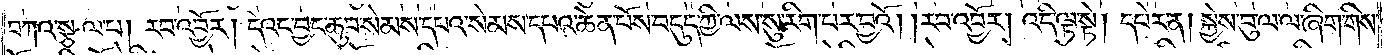བཀའ་སྩལ་པ། རབ་འབྱོར། དེའང་བྱང་ཆུབ་སེམས་དཔའ་སེམས་དཔའ་ཆེན་པོས་བདུད་ཀྱི་ལས་སུ་རིག་པར་བྱའོ། །རབ་འབྱོར། འདི་ལྟ་སྟེ། དཔེར་ན། སྐྱེས་བུ་ལ་ལ་ཞིག་གིས་
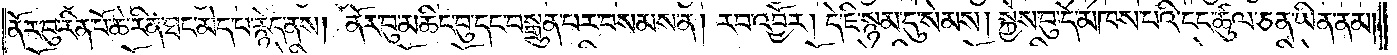ནོར་བུ་རིན་པོ་ཆེ་རིན་ཐང་མེད་པ་རྙེད་ནས། ནོར་བུ་མཆིང་བུ་དང་བསྐྲུན་པར་བསམས་ན། རབ་འབྱོར། དེ་ཇི་སྙམ་དུ་སེམས། སྐྱེས་བུ་དེ་མཁས་པའི་ངང་ཚུལ་ཅན་ཡིན་ནམ།
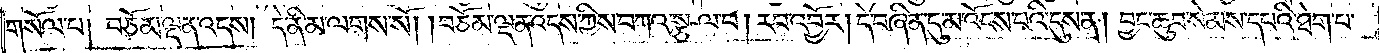གསོལ་པ། བཅོམ་ལྡན་འདས། དེ་ནི་མ་ལགས་སོ། །བཅོམ་ལྡན་འདས་ཀྱིས་བཀའ་སྩལ་པ། རབ་འབྱོར། དེ་བཞིན་དུ་མ་འོངས་པའི་དུས་ན། བྱང་ཆུབ་སེམས་དཔའི་ཐེག་པ་
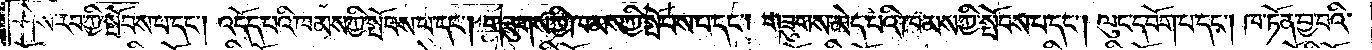ཤེས་རབ་ཀྱི་སྤོབས་པ་དང༌། འདོད་པའི་ཁམས་ཀྱི་སྤོབས་པ་དང༌། གཟུགས་ཀྱི་ཁམས་ཀྱི་སྤོབས་པ་དང༌། གཟུགས་མེད་པའི་ཁམས་ཀྱི་སྤོབས་པ་དང༌། ལུང་དབོག་པ་དང༌། ཁ་ཏོན་བྱ་བའི་
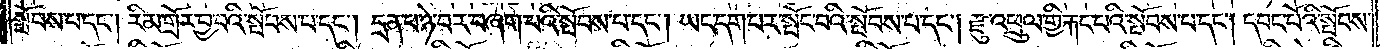སྤོབས་པ་དང༌། རིམ་གྲོར་བྱ་བའི་སྤོབས་པ་དང༌། དྲན་པ་ཉེ་བར་བཞག་པའི་སྤོབས་པ་དང༌། ཡང་དག་པར་སྤོང་བའི་སྤོབས་པ་དང༌། རྫུ་འཕྲུལ་གྱི་རྐང་པའི་སྤོབས་པ་དང༌། དབང་པོའི་སྤོབས་
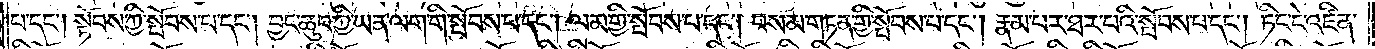པ་དང༌། སྟོབས་ཀྱི་སྤོབས་པ་དང༌། བྱང་ཆུབ་ཀྱི་ཡན་ལག་གི་སྤོབས་པ་དང༌། ལམ་གྱི་སྤོབས་པ་དང༌། བསམ་གཏན་གྱི་སྤོབས་པ་དང༌། རྣམ་པར་ཐར་པའི་སྤོབས་པ་དང༌། ཏིང་ངེ་འཛིན་
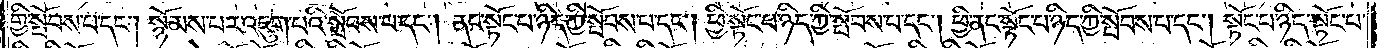གྱི་སྤོབས་པ་དང༌། སྙོམས་པར་འཇུག་པའི་སྤོབས་པ་དང༌། ནང་སྟོང་པ་ཉིད་ཀྱི་སྤོབས་པ་དང༌། ཕྱི་སྟོང་པ་ཉིད་ཀྱི་སྤོབས་པ་དང༌། ཕྱི་ནང་སྟོང་པ་ཉིད་ཀྱི་སྤོབས་པ་དང༌། སྟོང་པ་ཉིད་སྟོང་པ་
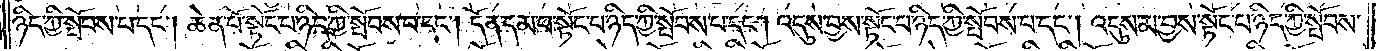ཉིད་ཀྱི་སྤོབས་པ་དང༌། ཆེན་པོ་སྟོང་པ་ཉིད་ཀྱི་སྤོབས་པ་དང༌། དོན་དམ་པ་སྟོང་པ་ཉིད་ཀྱི་སྤོབས་པ་དང༌། འདུས་བྱས་སྟོང་པ་ཉིད་ཀྱི་སྤོབས་པ་དང༌། འདུས་མ་བྱས་སྟོང་པ་ཉིད་ཀྱི་སྤོབས་
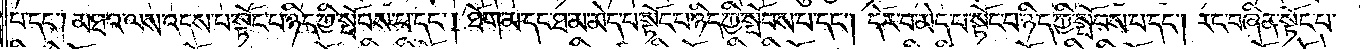པ་དང༌། མཐའ་ལས་འདས་པ་སྟོང་པ་ཉིད་ཀྱི་སྤོབས་པ་དང༌། ཐོག་མ་དང་ཐ་མ་མེད་པ་སྟོང་པ་ཉིད་ཀྱི་སྤོབས་པ་དང༌། དོར་བ་མེད་པ་སྟོང་པ་ཉིད་ཀྱི་སྤོབས་པ་དང༌། རང་བཞིན་སྟོང་པ་
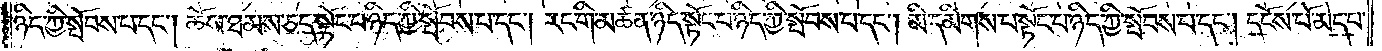ཉིད་ཀྱི་སྤོབས་པ་དང༌། ཆོས་ཐམས་ཅད་སྟོང་པ་ཉིད་ཀྱི་སྤོབས་པ་དང༌། རང་གི་མཚན་ཉིད་སྟོང་པ་ཉིད་ཀྱི་སྤོབས་པ་དང༌། མི་དམིགས་པ་སྟོང་པ་ཉིད་ཀྱི་སྤོབས་པ་དང༌། དངོས་པོ་མེད་པ་
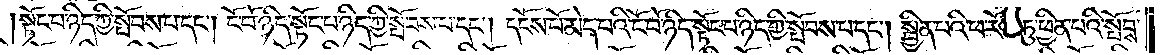སྟོང་པ་ཉིད་ཀྱི་སྤོབས་པ་དང༌། ངོ་བོ་ཉིད་སྟོང་པ་ཉིད་ཀྱི་སྤོབས་པ་དང༌། དངོས་པོ་མེད་པའི་ངོ་བོ་ཉིད་སྟོང་པ་ཉིད་ཀྱི་སྤོབས་པ་དང༌། སྦྱིན་པའི་ཕ་རོལ་ཏུ་ཕྱིན་པའི་སྤོབས་
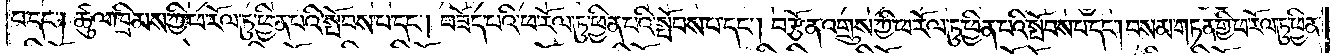པ་དང༌། ཚུལ་ཁྲིམས་ཀྱི་ཕ་རོལ་ཏུ་ཕྱིན་པའི་སྤོབས་པ་དང༌། བཟོད་པའི་ཕ་རོལ་ཏུ་ཕྱིན་པའི་སྤོབས་པ་དང༌། བརྩོན་འགྲུས་ཀྱི་ཕ་རོལ་ཏུ་ཕྱིན་པའི་སྤོབས་པ་དང༌། བསམ་གཏན་གྱི་ཕ་རོལ་ཏུ་ཕྱིན་
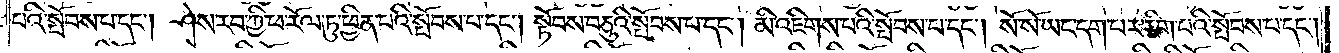པའི་སྤོབས་པ་དང༌། ཤེས་རབ་ཀྱི་ཕ་རོལ་ཏུ་ཕྱིན་པའི་སྤོབས་པ་དང༌། སྟོབས་བཅུའི་སྤོབས་པ་དང༌། མི་འཇིགས་པའི་སྤོབས་པ་དང༌། སོ་སོ་ཡང་དག་པར་རིག་པའི་སྤོབས་པ་དང༌།
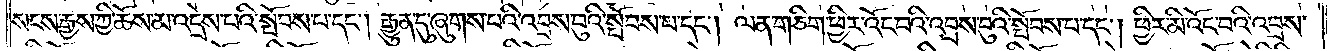སངས་རྒྱས་ཀྱི་ཆོས་མ་འདྲེས་པའི་སྤོབས་པ་དང༌། རྒྱུན་དུ་ཞུགས་པའི་འབྲས་བུའི་སྤོབས་པ་དང༌། ལན་གཅིག་ཕྱིར་འོང་བའི་འབྲས་བུའི་སྤོབས་པ་དང༌། ཕྱིར་མི་འོང་བའི་འབྲས་
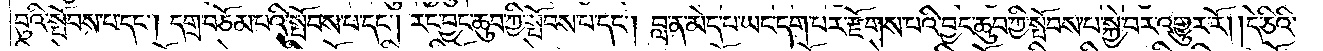བུའི་སྤོབས་པ་དང༌། དགྲ་བཅོམ་པའི་སྤོབས་པ་དང་།  རང་བྱང་ཆུབ་ཀྱི་སྤོབས་པ་དང༌། བླ་ན་མེད་པ་ཡང་དག་པར་རྫོགས་པའི་བྱང་ཆུབ་ཀྱི་སྤོབས་པ་སྐྱེ་བར་འགྱུར་རོ། །དེ་ཅིའི་
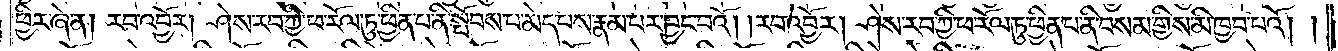ཕྱིར་ཞེ་ན། རབ་འབྱོར། ཤེས་རབ་ཀྱི་ཕ་རོལ་ཏུ་ཕྱིན་པ་ནི་སྤོབས་པ་མེད་པས་རྣམ་པར་བྱང་བའོ། །རབ་འབྱོར། ཤེས་རབ་ཀྱི་ཕ་རོལ་ཏུ་ཕྱིན་པ་ནི་བསམ་གྱིས་མི་ཁྱབ་པའོ། །
